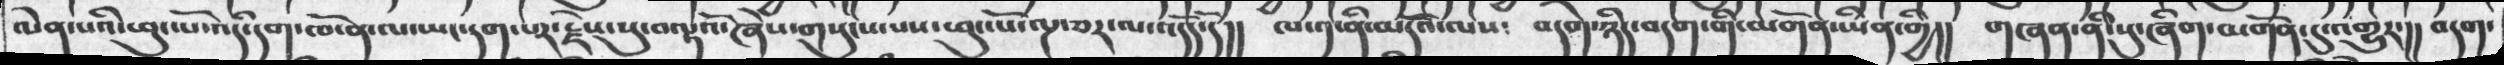མེད་པའི་ཕུང་པོ་འདི་དག་ཁོ་ན་ལ་ཡང་དག་པར་རྗེས་སུ་བལྟའོ་ཞེས་གསུངས་པས་ཕུང་པོ་ལྔ་ཅར་ལ་འདོད་དོ་།།  ལ་༡་ནི་མདོའི་ལས༴  བདག་ཉིད་བདག་གི་མགོན་ཡིན་གྱི།།  གཞན་ནི་སུ་ཞིག་མགོན་དུ་འགྱུར་།།  བདག་
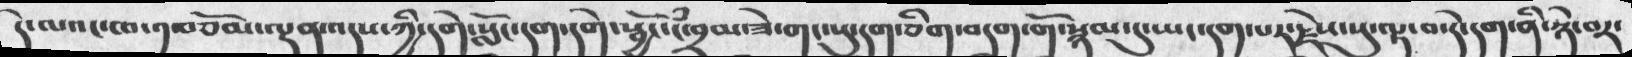དེ་ལའང་ཁ་༡་བཅོམ་ལྡན་འདས་ཀྱི་དགེ་སློང་དག་དགེ་སྦྱོང་ངཾ་བྲམ་ཟེ་གང་སུ་དག་ཅིག་བདག་གོ་སྙམ་དུ་ཡང་དག་པར་རྗེས་སུ་ལྟ་བ་དེ་དག་ནི་ཉེ་བར་
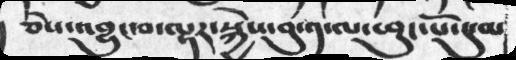ཅེས་འབྱུང་བ་ལྟར་སྐྱེས་བུ་༡་ལ་ཕུང་པོ་དུ་མ
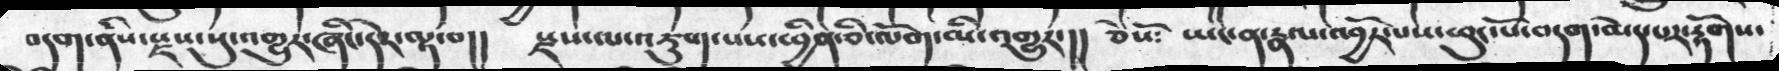བདག་ནིས་སྫས་སུ་འགྱུར་ཞིང་དེར་ལྟ་བ།།   སྫས་ལ་འཇུག་པས་ཕྱིན་ཅི་ལོག་མི་འགྱུར་།།  ཅེསོ༴    ཡང་ན་རྣལ་འབྱོར་པས་ཕུང་པོ་བདག་མེད་པར་རྟོགས་
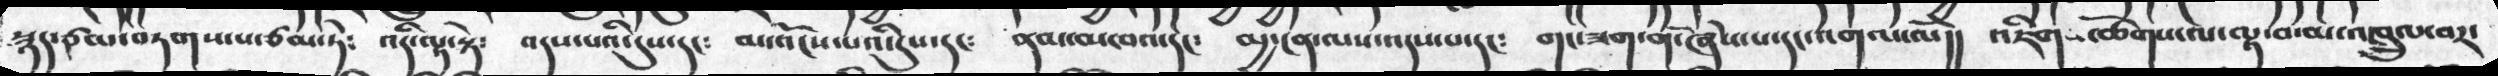སྙད་ཙམ་བཏགས་པ་ཙམ་ཏེ༴   འདི་ལྟ་སྟེ༴  འདས་པའི་དུས་དང༴  མ་འོངས་པའི་དུས་དང༴  ནམ་མཁའ་དང༴  མྱ་ངན་ལས་འདས་པ་དང༴  གང་ཟག་གོ་ཞེས་པ་དང་འགལ་ལོ།།   འཇིགས་ཚོགས་ལ་ལྟ་བ་མ་འཁྲུལ་བར་
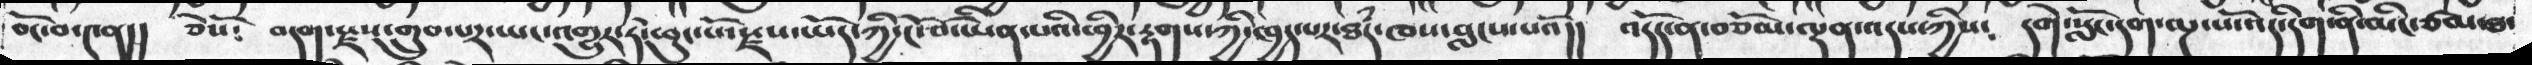བོང་བ་༤ན།།   ཅེསོ༴   བདག་སྫས་གྲུབ་པར་ཡང་འགྱུར་ཏེ་ཕུང་པོ་སྫས་ཡོད་ཀྱི་ངོ་བོ་ཡིན་པའི་ཕྱིར་རྟགས་ཀྱི་ཁྱད་པར་ཐཾད་ཁས་བླངས་པའོ།།  འདོད་ན་བཅོམ་ལྡན་འདས་ཀྱིས༴   དགེ་སློང་དག་ལྔ་པ་འོད་རིག་ནི་མིང་ཙམ་ཐ་
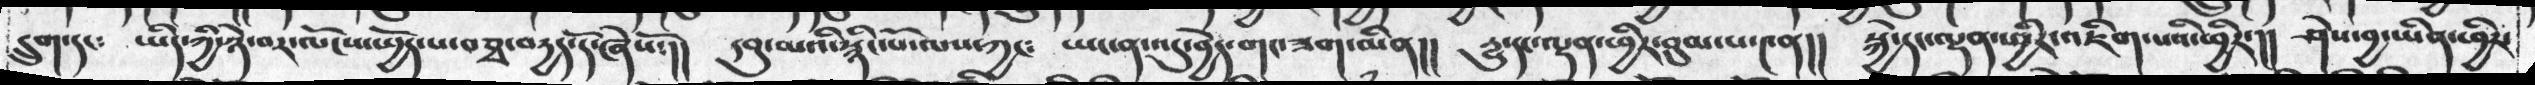དྲུག་དང༴   ཡིད་ཀྱི་ཉེ་བར་ལོངས་ཡྱོད་པ་བཅྭ་བདྱད་དོ་ཞེསོ་།།  དབུ་མའི་སྙིང་པོ་ལས་ཀྱང༴  ཡང་ན་འདུ་བྱེད་གང་ཟག་མིན།།  དྱུ་དང་ལྡན་ཕྱིར་བུམ་པ་༤ན།།   སྐྱེ་དང་ལྡན་ཕྱིར་འཇིག་པའི་ཕྱིར་།།   ཤེས་བྱ་ཡིན་ཕྱིར་
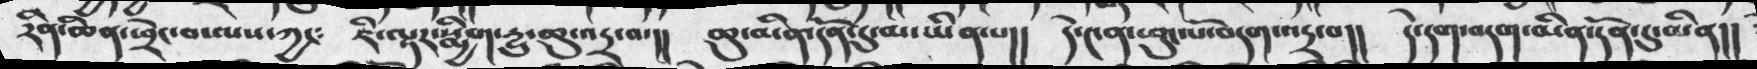རིན་ཆེན་ཕྲེང་བ་ལས་ཀྱང༴  ཇི་ལྟར་སྨྱིག་དྱུ་ཆུ་འདྲ་བ་།།  ཆུ་མིན་དོན་དུ་མ་ཡིན་པ།།  དེ་༤ན་ཕུང་པོ་བདག་འདྲ་བ།།  དེ་དག་བདག་མིན་དོན་དུ་མིན།།
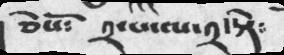ཅེསོ༴  ༢་པ་ལ་༢་སྟེ༴
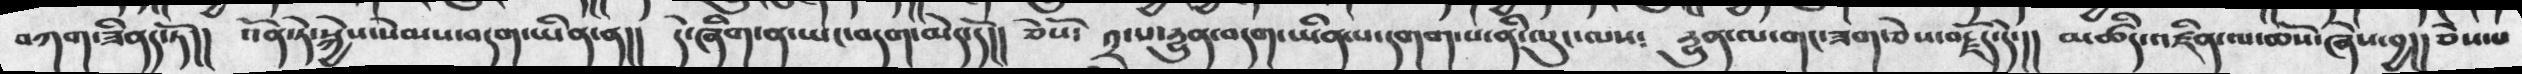བགག་ཟིན་ཏོ།།  འོན་ཏེ་སྐྱེས་སེམས་བདག་ཡིན་ན།།  དེ་ཞིག་ན་ཡང་བདག་མེད་དོ།།  ཅེསོ༴  ༢་པ་དྱུན་བདག་ཡིན་པ་དགག་པ་ནི་ལུང་ལས༴   དྱུན་ལ་གང་ཟག་ཅེས་བརྗོད་དེ་།།    མཚིད་འཛིན་ལ་ཆོས་ཞེས་བྱ།།    ཅེས་པ
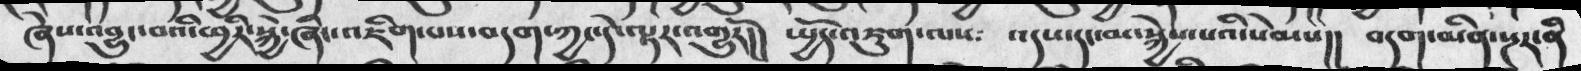ཞེས་འབྱུང་བའི་ཕྱིར་སྐྱེ་ཞིང་འཇིག་པས་བདག་ཀྱང་དེ་ལྟར་འགྱུརོ།།   ཡྱོད་འཇུག་ལས༴   འདས་དང་མ་སྐྱེས་པའི་སེམས།།   བདག་མིན་སྔར་ནི
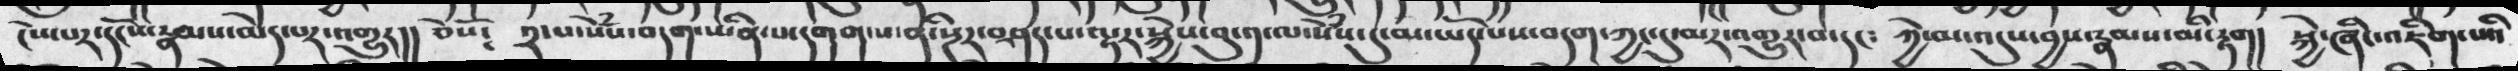ངེས་པར་དངོས་རྣམས་མེད་པར་འགྱུར།།  ཅེསོ༴   ༢་པ་སེཾས་བདག་ཡིན་པ་དགག་པ་ནི་སྔར་བཤད་པ་ལྟར་སྐྱེས་བུ་༡་ལ་སེཾས་དུ་མ་ཡོད་པས་བདག་ཀྱང་དུ་མར་འགྱུར་བ་དང༴    ཀྱེ་མ་འདུས་བྱས་རྣམས་མི་རྟག།།  སྐྱེ་ཞིང་འཇིག་པའི
